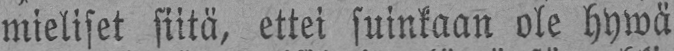mieliset siitä, ettei suinkaan ole hywä
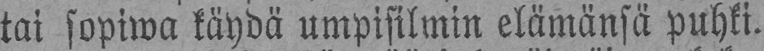tai sopiwa käydä umpisilmin elämänsä puhki.
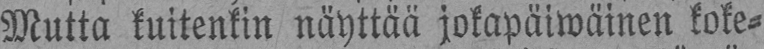Mutta kuitenkin näyttää jokapäiwäinen koke-
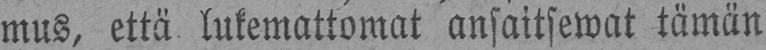mus, että lukemattomat ansaitsewat tämän
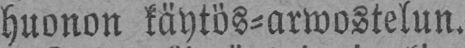huonon käytös-arwostelun.
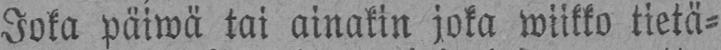Joka päiwä tai ainakin joka wiikko tietä-
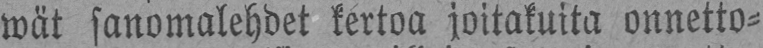wät sanomalehdet kertoa joitakuita onnetto-
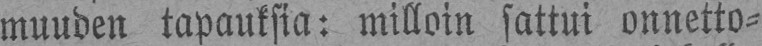muuden tapauksia: milloin sattui onnetto-
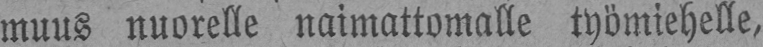muus nuorelle naimattomalle työmiehelle,
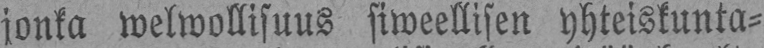jonka welwollisuus siweellisen yhteiskunta-
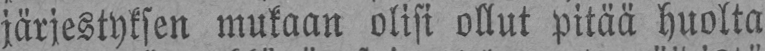järjestyksen mukaan olisi ollut pitää huolta
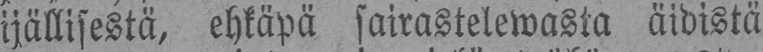ijällisestä, ehkäpä sairastelewasta äidistä
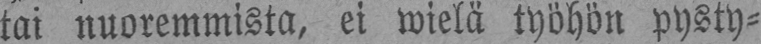tai nuoremmista, ei wielä työhön pysty-
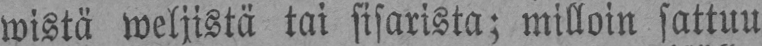wistä weljistä tai sisarista; milloin sattuu
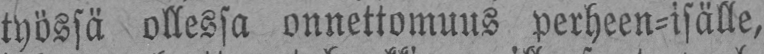työssä ollessa onnettomuus perheen-isälle,
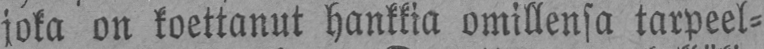joka on koettanut hankkia omillensa tarpeel-
